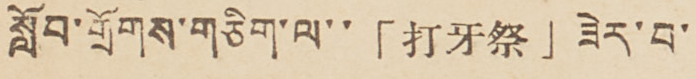སློབ་གྲོགས་གཅིག་ལ་་「打牙祭」 ཟེར་བ་
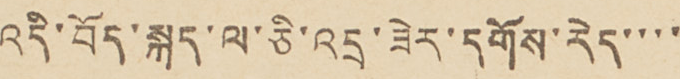འདི་བོད་སྐད་ལ་ཅི་འདྲ་ཟེར་དགོས་རེད་་་་
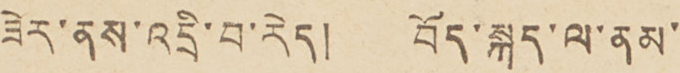ཟེར་ནས་འདྲི་བ་རེད། བོད་སྐད་ལ་ནམ་
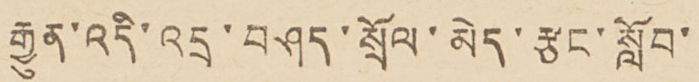རྒྱུན་འདི་འདྲ་བཤད་སྲོལ་མེད་རྩང་སློབ་
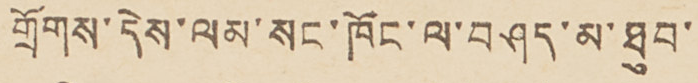གྲོགས་དེས་ལམ་སུང་ཁོང་ལ་བཤད་མ་ཐུབ་
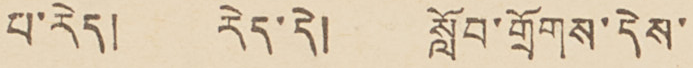པ་རེད། རེད་དེ། སློབ་གྲོགས་དེས་
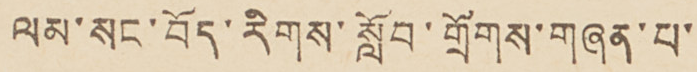ལམ་སང་བོད་རིགས་སློབ་གྲོགས་གཞན་པ་
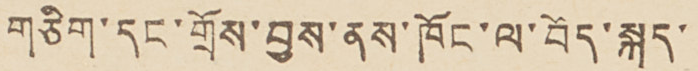གཅིག་དང་གྲོས་བྱས་ནས་ཁོང་ལ་བོད་སྐད་
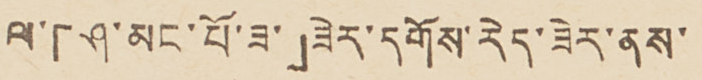ལ་「ཤ་མང་པོ་ཟ་」ཟེར་དགོས་རེད་ཟེར་ནས་
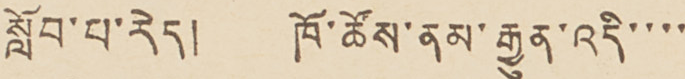སློབ་པ་རེད། ཁོ་ཚོས་ནམ་རྒྱུན་འདི་་་་
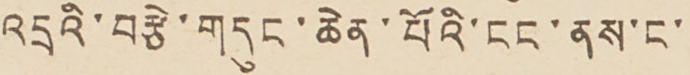འདྲའི་བརྩེ་གདུང་ཆེན་པོའི་ངང་ནས་ང་
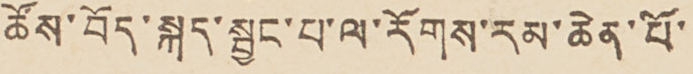ཚོས་བོད་སྐད་སྦྱང་པ་ལ་རོགས་རམ་ཆེན་པོ་
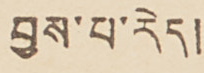བྱས་པ་རེད།
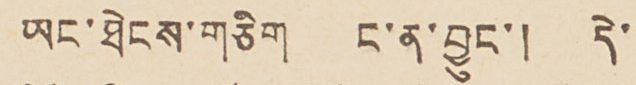ཡང་ཐེངས་གཅིག ང་ན་བྱུང་། དེ་
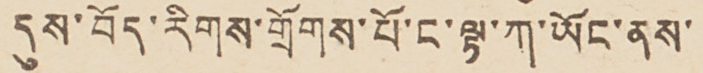དུས་བོད་རིགས་གྲོགས་པོ་ང་ལྟ་ཀ་ཡོང་ནས་
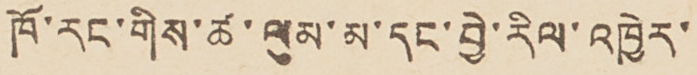ཁོ་རང་གིས་ཚ་ལུམ་མ་དང་བྱེ་རིལ་འཁྱེར་
